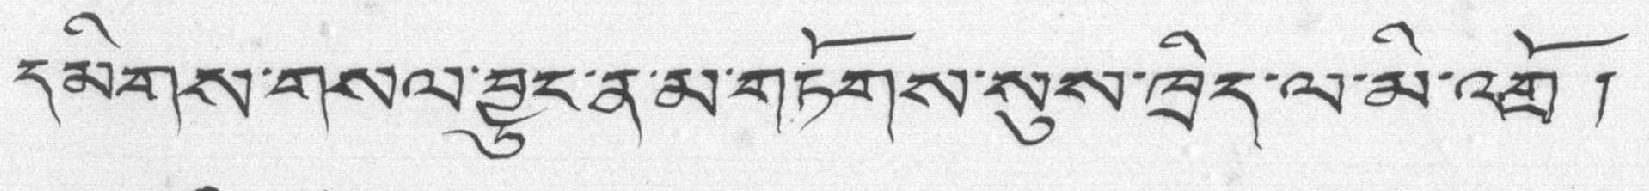དམིགས་གསལ་བྱུང་ན་མ་གཏོགས་སུས་ཁྲིད་ལ་མ་འགྲོ །
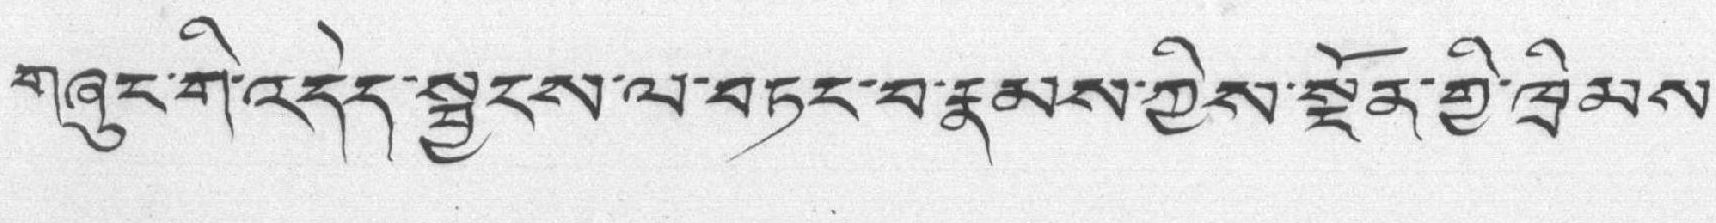གཞུང་གི་འདེད་སྦྱངས་ལ་བཏང་བ་རྣམས་ཀྱིས་སྔོན་གྱི་ཁྲིམས་
